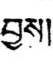བྱས།
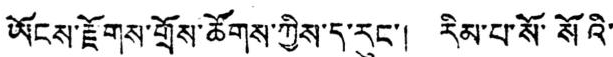ཡོངས་རྫོགས་གྲོས་ཚོགས་ཀྱིས་ད་རུང་། རིམ་པ་སོ་སོའི་
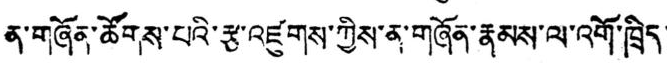ན་གཞོན་ཚོགས་པའི་རྩ་འཛུགས་ཀྱིས་ན་གཞོན་རྣམས་ལ་འགོ་ཁྲིད་་
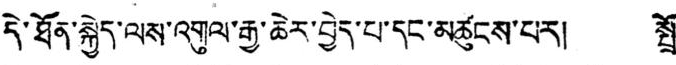དེ་ཐོན་སྐྱེད་ལས་འགུལ་རྒྱ་ཆེར་བྱེད་པ་དང་མཚུངས་པར། སྤྲོ་
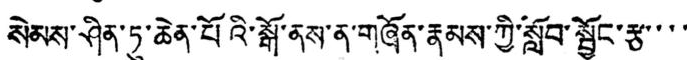སེམས་ཤིན་ཏུ་ཆེན་པོའི་སྒོ་ནས་ན་གཞོན་རྣམས་ཀྱི་སློབ་སྦྱོང་རྩ་་་་
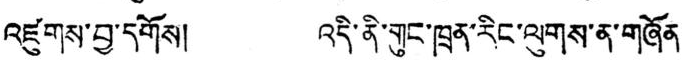འཛུགས་བྱ་དགོས། འདི་ནི་གུང་ཁྲན་རིང་ལུགས་ན་གཞོན་
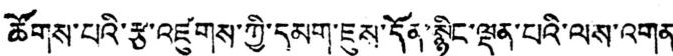ཚོགས་པའི་རྩ་འཛུགས་ཀྱི་དམག་ཇུས་དོན་སྙིང་ལྡན་པའི་ལས་འགན་་
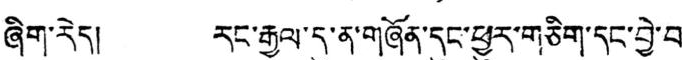ཞིག་རེད། རང་རྒྱལ་དུ་ན་གཞོན་དུང་ཕྱུར་གཅིག་དང་བྱེ་བ་
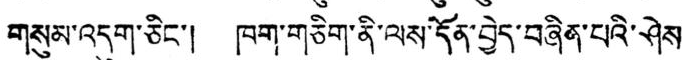གསུམ་འདུག་ཅིང་། ཁག་གཅིག་ནི་ལས་དོན་བྱེད་བཞིན་པའི་ཤེས་
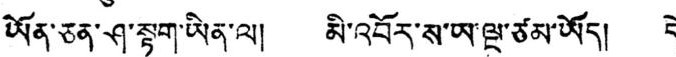ཡོན་ཅན་ཤ་སྟག་ཡིན་ལ། མི་འབོར་ས་ཡ་ལྔ་ཙམ་ཡོད། དེ་
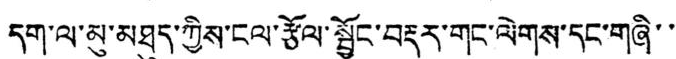དག་ལ་མུ་མཐུད་ཀྱིས་ངལ་རྩོལ་སྦྱོང་བརྡར་གང་ལེགས་དང་གཞི་་་
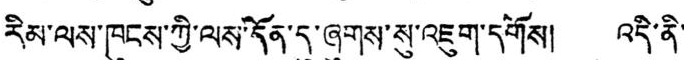རིམ་ལས་ཁུངས་ཀྱི་ལས་དོན་དུ་ཞུགས་སུ་འཇུག་དགོས། འདི་ནི་
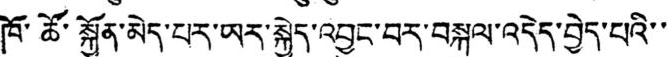ཁོ་ཚོ་སྐྱོན་མེད་པར་ཡར་སྐྱེད་འབྱུང་བར་བསྐུལ་འདེད་བྱེད་པའི་་་
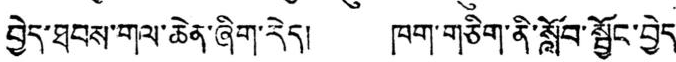བྱེད་ཐབས་གལ་ཆེན་ཞིག་རེད། ཁག་གཅིག་ནི་སློབ་སྦྱོང་བྱེད་
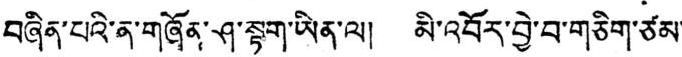བཞིན་པའི་ན་གཞོན་ཤ་སྟག་ཡིན་ལ། མི་འབོར་བྱེ་བ་གཅིག་ཙམ་
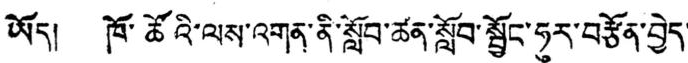ཡོད། ཁོ་ཚོའི་ལས་འགན་ནི་སློབ་ཚན་སློབ་སྦྱོང་ཧུར་བརྩོན་བྱེད་
